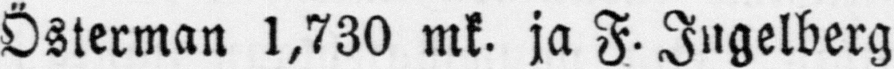Österman 1,730 mk. ja F. Jugelberg
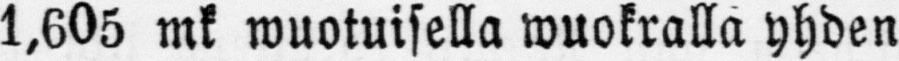1,605 mk wuotuisella wuokralla yhden
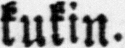kukin.
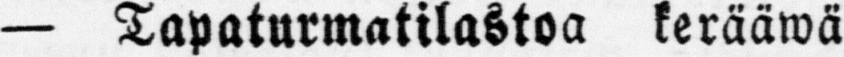— Tapaturmatilastoa kerääwä
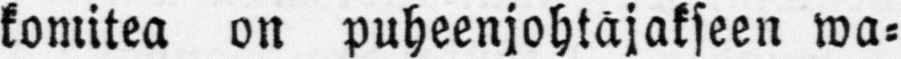komitea on puheenjohtajakseen wa-
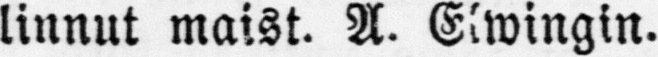linnut maist. A. Elwingin.
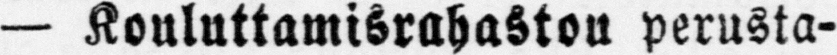— Kouluttamisrahastou perusta-
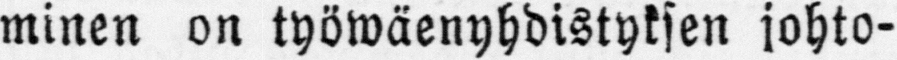minen on työwäenyhdistyksen johto-
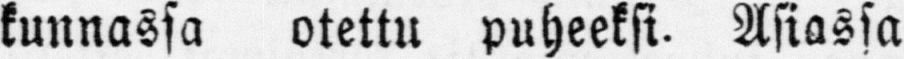kunnassa otettu puheeksi. Asiassa
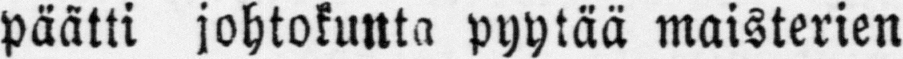päätti johtokunta pyytää maisterien
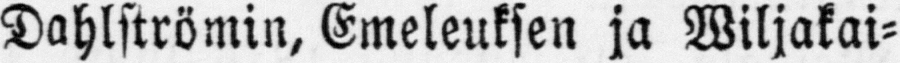Dahlströmin, Emeleuksen ja Wiljakai-
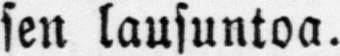sen lausuntoa.
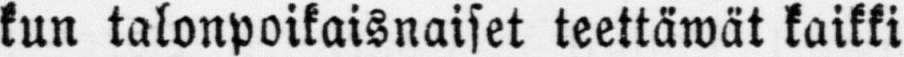kun talonpoikaisnaiset teettäwät kaikki
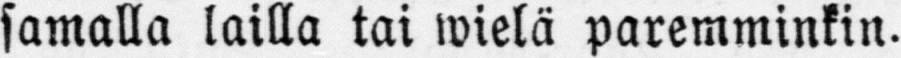samalla lailla tai wielä paremminkin.
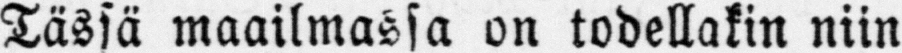Tässä maailmassa on todellakin niin
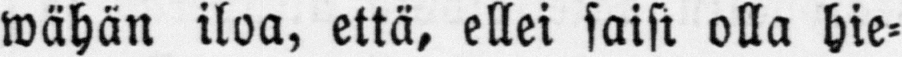wähän iloa, että, ellei saisi olla hie-
